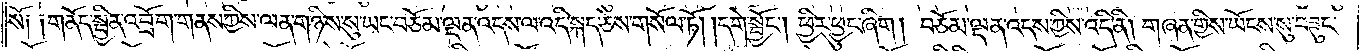སོ༑ ༑གནོད་སྦྱིན་འབྲོག་གནས་ཀྱིས་ལན་གཉིས་སུ་ཡང་བཅོམ་ལྡན་འདས་ལ་འདི་སྐད་ཅེས་གསོལ་ཏོ། །དགེ་སྦྱོང༌། ཕྱིར་ཕྱུང་ཞིག། བཅོམ་ལྡན་འདས་ཀྱིས་འདི་ནི། གཞན་གྱིས་ཡོངས་སུ་བཟུང་
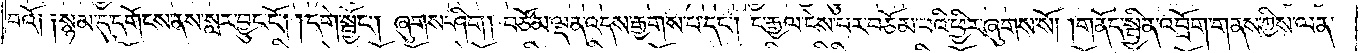བའོ༑ ༑སྙམ་དུ་དགོངས་ནས་སླར་བྱུང་ངོ༌། །དགེ་སྦྱོང༌། ཞུགས་ཤིག །བཅོམ་ལྡན་འདས་རྒྱགས་པ་དང༌། ང་རྒྱལ་ངེས་པར་བཅོམ་པའི་ཕྱིར་ཞུགས་སོ། །གནོད་སྦྱིན་འབྲོག་གནས་ཀྱིས་ལན་
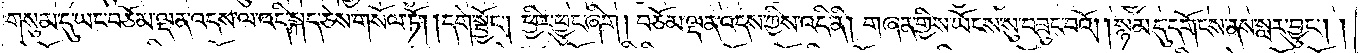གསུམ་དུ་ཡང་བཅོམ་ལྡན་འདས་ལ་འདི་སྐད་ཅེས་གསོལ་ཏོ། །དགེ་སྦྱོང༌། ཕྱིར་ཕྱུང་ཞིག །བཅོམ་ལྡན་འདས་ཀྱིས་འདི་ནི། གཞན་གྱིས་ཡོངས་སུ་བཟུང་བའོ། །སྙམ་དུ་དགོངས་ནས་སླར་བྱུང༌། །
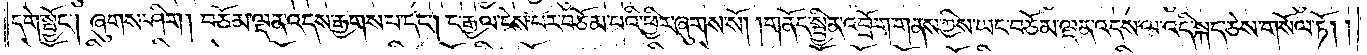དགེ་སྦྱོང༌། །ཞུགས་ཤིག །བཅོམ་ལྡན་འདས་རྒྱགས་པ་དང༌། ང་རྒྱལ་ངེས་པར་བཅོམ་པའི་ཕྱིར་ཞུགས་སོ། །གནོད་སྦྱིན་འབྲོག་གནས་ཀྱིས་ཡང་བཅོམ་ལྡན་འདས་ལ་འདི་སྐད་ཅེས་གསོལ་ཏོ། །
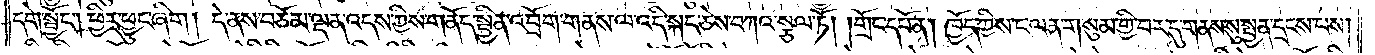དགེ་སྦྱོང༌། ཕྱིར་ཕྱུང་ཞིག །དེ་ནས་བཅོམ་ལྡན་འདས་ཀྱིས་གནོད་སྦྱིན་འབྲོག་གནས་ལ་འདི་སྐད་ཅེས་བཀའ་སྩལ་ཏོ། །གྲོང་དཔོན། ཁྱོད་ཀྱིས་ང་ལན་གསུམ་གྱི་བར་དུ་གནས་སུ་སྤྱན་དྲངས་པས།
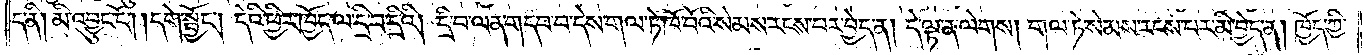ད་ནི། མི་འབྱུང་ངོ༌། །དགེ་སྦྱོང༌། །དེའི་ཕྱིར་ཁྱོད་ལ་དྲི་བ་དྲིའོ། །དྲི་བ་ལན་གདབ་པ་དེས་གལ་ཏེ་ཁོ་བོའི་སེམས་རངས་པར་བྱེད་ན། དེ་ལྟ་ན་ལེགས། གལ་ཏེ་སེམས་རངས་པར་མི་བྱེད་ན། ཁྱོད་ཀྱི་
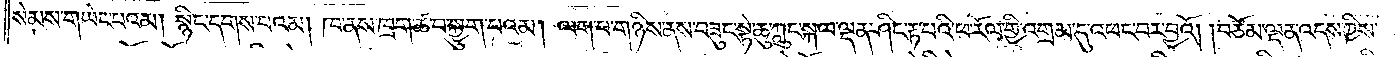སེམས་གཡེང་བའམ། སྙིང་དགས་པའམ། ཁ་ནས་ཁྲག་ཚ་བ་སྐྱུག་པའམ། ལག་པ་གཉིས་ནས་བཟུང་སྟེ་ཆུ་ཀླུང་སྐལ་ལྡན་ཤིང་རྟ་པའི་ཕ་རོལ་གྱི་འགྲམ་དུ་འཕང་བར་བྱའོ། །བཅོམ་ལྡན་འདས་ཀྱིས་
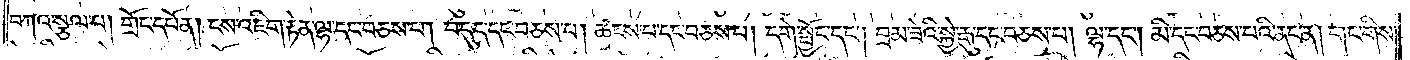བཀའ་སྩལ་པ། གྲོང་དཔོན། ངས་འཇིག་རྟེན་ལྷ་དང་བཅས་པ། བདུད་དང་བཅས་པ། ཚངས་པ་དང་བཅས་པ། དགེ་སྦྱོང་དང༌། བྲམ་ཟེའི་སྐྱེ་རྒུ་དང་བཅས་པ། ལྷ་དང༌། མི་དང་བཅས་པའི་ནང་ན། གང་གིས་
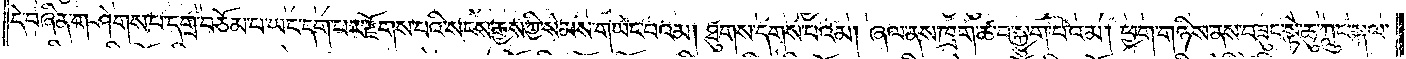དེ་བཞིན་གཤེགས་པ་དགྲ་བཅོམ་པ་ཡང་དག་པར་རྫོགས་པའི་སངས་རྒྱས་ཀྱི་སེམས་གཡེང་བའམ། ཐུགས་དགས་པའམ། ཞལ་ནས་ཁྲག་ཚ་བ་སྐྱུག་པའམ། ཕྱག་གཉིས་ནས་བཟུང་སྟེ་ཆུ་ཀླུང་སྐལ་
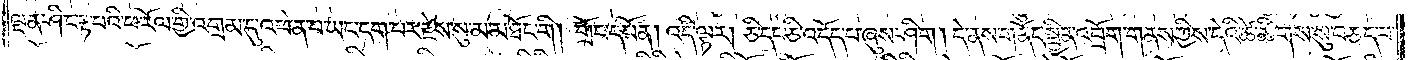ལྡན་ཤིང་རྟ་པའི་ཕ་རོལ་གྱི་འགྲམ་དུ་འཕེན་པ་ཡང་དག་པར་རྗེས་སུ་མ་མཐོང་གི། གྲོང་དཔོན། འདི་ལྟར། ཅི་དང་ཅི་འདོད་པ་ཞུས་ཤིག །དེ་ནས་གནོད་སྦྱིན་འབྲོག་གནས་ཀྱིས་དེའི་ཚེ་ཚིགས་སུ་བཅད་པ་
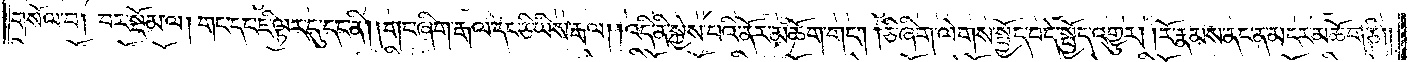གསོལ་བ། བར་སྡོམ་ལ། གང་དང་ཇི་ལྟར་དུ་དང་ནི། གང་ཞིག་རྒལ་དང་ཅི་ཡིས་རྒལ། །འདི་ནི་སྐྱེས་པའི་ནོར་མཆོག་གང༌། །ཅི་ཞིག་ལེགས་སྤྱོད་བདེ་སྤྱོད་འགྱུར། །རོ་རྣམས་ནང་ན་མངར་མཆོག་ཅི༎
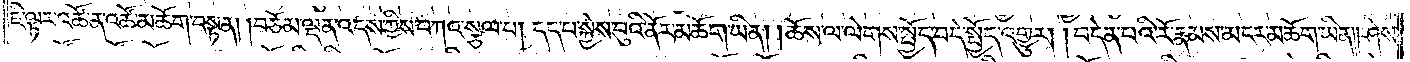ཇི་ལྟར་འཚོ་ན་འཚོ་མཆོག་བསྟན། །བཅོམ་ལྡན་འདས་ཀྱིས་བཀའ་སྩལ་པ། དད་པ་སྐྱེས་བུའི་ནོར་མཆོག་ཡིན། །ཆོས་ལ་ལེགས་སྤྱོད་པ་དེ་སྤྱོད་འགྱུར། །བདེན་པའི་རོ་རྣམས་མངར་མཆོག་ཡིན། ཤེས་
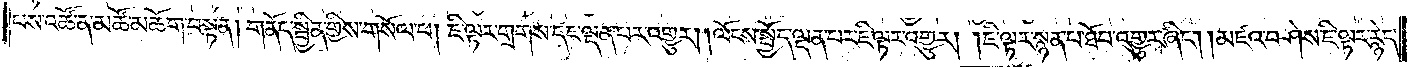པས་འཚོ་ན་མཚོ་མཆོག་བསྟན། །གནོད་སྦྱིན་གྱིས་གསོལ་པ། ཇི་ལྟར་གྲགས་དང་ལྡན་པར་འགྱུར། །ལོངས་སྤྱོད་ལྡན་པར་ཇི་ལྟར་འགྱུར། །ཇི་ལྟར་སྙན་པ་ཐོབ་འགྱུར་ཞིང༌། །མཛའ་བཤེས་ཇི་ལྟར་རྙེད་
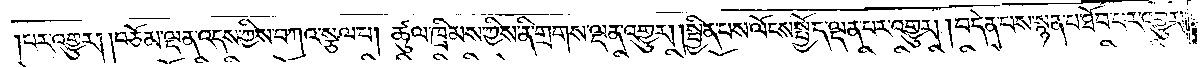པར་འགྱུར། །བཅོམ་ལྡན་འདས་ཀྱིས་བཀའ་སྩལ་པ། ཚུལ་ཁྲིམས་ཀྱིས་ནི་གྲགས་ལྡན་འགྱུར། །སྦྱིན་པས་ལོངས་སྤྱོད་ལྡན་པར་འགྱུར། །བདེན་པས་སྙན་པ་ཐོབ་པར་འགྱུར༎
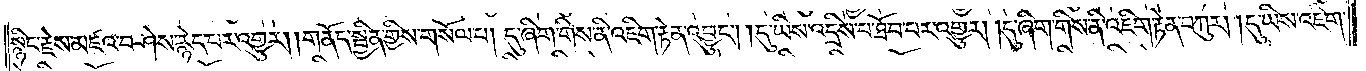སྙིང་རྗེས་མཛའ་བཤེས་རྙེད་པར་འགྱུར། །གནོད་སྦྱིན་གྱིས་གསོལ་པ། དུ་ཞིག་གིས་ནི་འཇིག་རྟེན་འབྱུང༌། །དུ་ཡིས་འདྲིས་པ་ཐོབ་པར་འགྱུར། །དུ་ཞིག་གིས་ནི་འཇིག་རྟེན་བཀུར། །དུ་ཡིས་འཇིག་
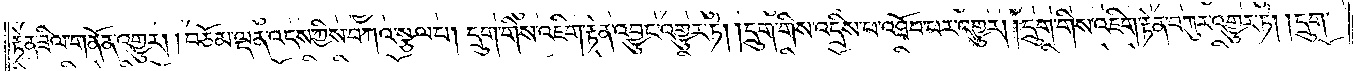རྟེན་ཟིལ་གནོན་འགྱུར། །བཅོམ་ལྡན་འདས་ཀྱིས་བཀའ་སྩལ་པ། དྲུག་གིས་འཇིག་རྟེན་འབྱུང་འགྱུར་ཏེ། །དྲུག་གིས་འདྲིས་པ་འཐོབ་པར་འགྱུར། །དྲུག་གིས་འཇིག་རྟེན་བཀུར་འགྱུར་ཏེ། །དྲུག་
